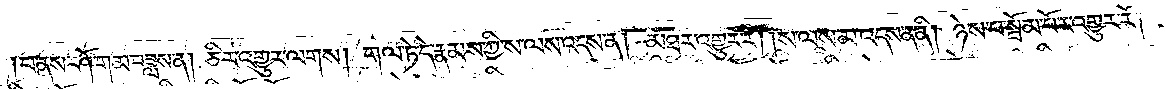།པ་ནས་ཤོ་གམ་བཟླས་ན། ཅིར་འགྱུར་ལགས། གལ་ཏེ་དེ་རྣམས་ཀྱི་ས་ལས་འདས་ན། མཐར་འགྱུར་རོ། །ས་ལས་མ་འདས་ན་ནི། ཉེས་པ་སྦོམ་པོར་འགྱུར་རོ། །
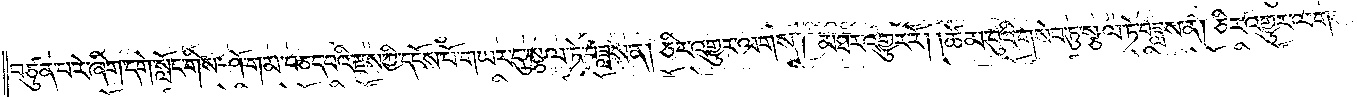བཙུན་པ་རེ་ཞིག་དགེ་སློང་གིས་ཤོ་གམ་བཅད་པའི་རྫས་ཀྱི་དངོས་པོ་གཡར་དུ་སྩལ་ཏེ་བཟླས་ན། ཅིར་འགྱུར་ལགས། མཐར་འགྱུར་རོ། །ཚེམ་བུའི་གསེབ་ཏུ་སྩལ་ཏེ་བཟླས་ན། ཅིར་འགྱུར་ལགས།
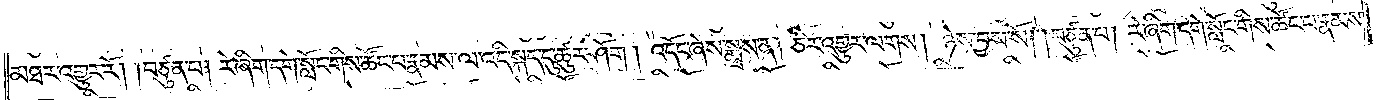མཐར་འགྱུར་རོ། །བཙུན་པ། རེ་ཞིག་དགེ་སློང་གིས་ཚོང་པ་རྣམས་ལ་འདི་སྐད་དུ་ཚུར་ཤོག །འདོང་ཞེས་སྨྲས་ན། ཅིར་འགྱུར་ལགས། ཉེས་བྱས་སོ། །བཙུན་པ། རེ་ཞིག་དགེ་སློང་གིས་ཚོང་པ་རྣམས་
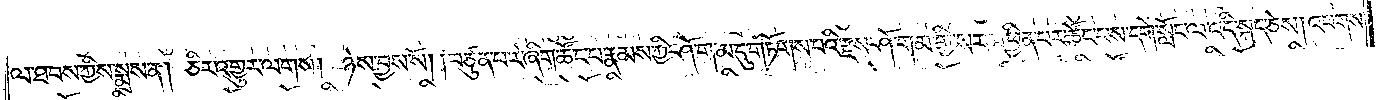ལ་ཐབས་ཀྱིས་སྨྲས་ན། ཅིར་འགྱུར་ལགས། ཉེས་བྱས་སོ། །བཙུན་པ་རེ་ཞིག་ཚོང་པ་རྣམས་ཀྱི་ཤོ་གམ་དུ་གཏོགས་པའི་རྫས་ཤོ་གམ་གྱི་སར་མ་ཕྱིན་པར་ཚོང་པས་དགེ་སློང་ལ་འདི་སྐད་ཅེས། འཕགས་
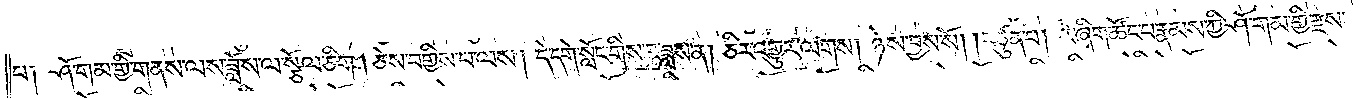པ༑ ཤོ་གམ་གྱི་གནས་ལས་ཟློས་ལ་སྩོལ་ཅིག །ཅེས་བགྱིས་པ་ལས། དེ་དགེ་སློང་གིས་བཟླས་ན། ཅིར་འགྱུར་ལགས། ཉེས་བྱས་སོ། །བཙུན་པ། རེ་ཞིག་ཚོང་པ་རྣམས་ཀྱི་ཤོ་གམ་གྱི་རྫས་
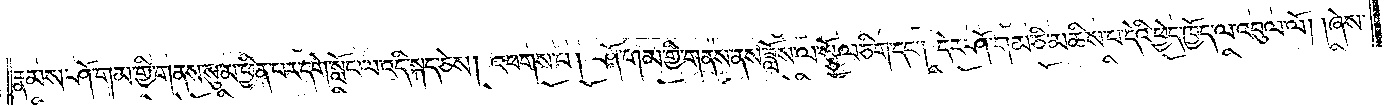རྣམས་ཤོ་གམ་གྱི་གནས་སུ་མ་ཕྱིན་པར་དགེ་སློང་ལ་འདི་སྐད་ཅེས། འཕགས་པ། ཤོ་གམ་གྱི་གནས་ནས་ཟློས་ལ་སྩོལ་ཅིག་དང༌། དེར་ཤོ་གམ་ཅི་མཆིས་པ་དེའི་ཕྱེད་ཁྱོད་ལ་འབུལ་ལོ། །ཞེས་
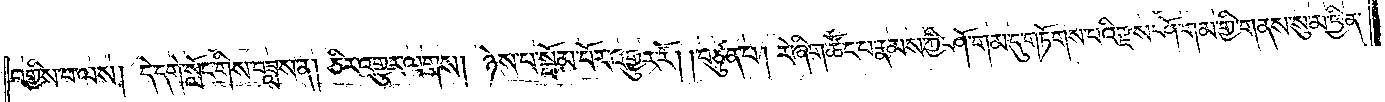བགྱིས་པ་ལས། དེ་དགེ་སློང་གིས་བཟླས་ན། ཅིར་འགྱུར་ལགས། ཉེས་པ་སྦོམ་པོར་འགྱུར་རོ། །བཙུན་པ། རེ་ཞིག་ཚོང་པ་རྣམས་ཀྱི་ཤོ་གམ་དུ་གཏོགས་པའི་རྫས་ཤོ་གམ་གྱི་གནས་སུ་མ་ཕྱིན་
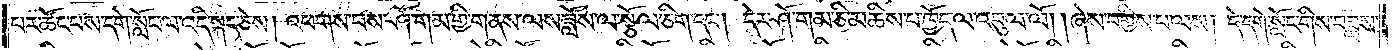པར་ཚོང་པས་དགེ་སློང་ལ་འདི་སྐད་ཅེས། འཕགས་པས་ཤོ་གམ་གྱི་གནས་ལས་ཟློས་ལ་སྩོལ་ཅིག་དང༌། དེར་ཤོ་གམ་ཅི་མཆིས་པ་ཁྱོད་ལ་འབུལ་ལོ། །ཞེས་བགྱིས་པ་ལས། དེ་དགེ་སློང་གིས་བཟླས་
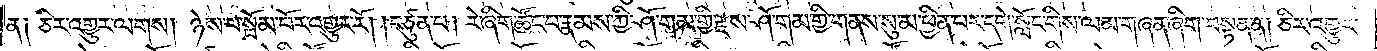ན༑ ཅིར་འགྱུར་ལགས། ཉེས་པ་སྦོམ་པོར་འགྱུར་རོ། །བཙུན་པ། རེ་ཞིག་ཚོང་པ་རྣམས་ཀྱི་ཤོ་གམ་གྱི་རྫས་ཤོ་གམ་གྱི་གནས་སུ་མ་ཕྱིན་པར་དགེ་སློང་གིས་ལམ་གཞན་ཞིག་བསྟན་ན། ཅིར་འགྱུར་
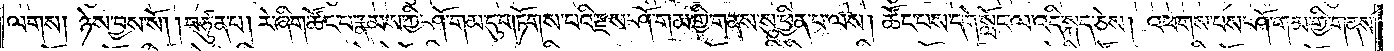ལགས། ཉེས་བྱས་སོ། །བཙུན་པ། རེ་ཞིག་ཚོང་པ་རྣམས་ཀྱི་ཤོ་གམ་དུ་གཏོགས་པའི་རྫས་ཤོ་གམ་གྱི་གནས་སུ་ཕྱིན་པ་ལས། ཚོང་པས་དགེ་སློང་ལ་འདི་སྐད་ཅེས། འཕགས་པས་ཤོ་གམ་གྱི་གནས་
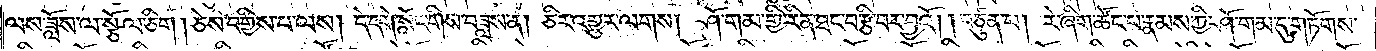ལས་ཟློས་ལ་སྩོལ་ཅིག །ཅེས་བགྱིས་པ་ལས། དེ་དགེ་སློང་གིས་བཟླས་ན། ཅིར་འགྱུར་ལགས། ཤོ་གམ་གྱི་རིན་ཐང་བརྩི་བར་བྱའོ། །བཙུན་པ། རེ་ཞིག་ཚོང་པ་རྣམས་ཀྱི་ཤོ་གམ་དུ་གཏོགས་
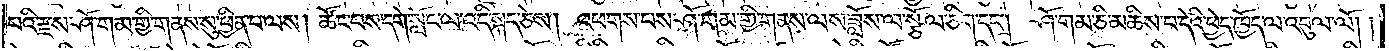པའི་རྫས་ཤོ་གམ་གྱི་གནས་སུ་ཕྱིན་པ་ལས། ཚོང་པས་དགེ་སློང་ལ་འདི་སྐད་ཅེས། འཕགས་པས་ཤོ་གམ་གྱི་གནས་ལས་ཟློས་ལ་སྩོལ་ཅིག་དང༌། ཤོ་གམ་ཅི་མཆིས་པ་དེའི་ཕྱེད་ཁྱོད་ལ་འབུལ་ལོ། །
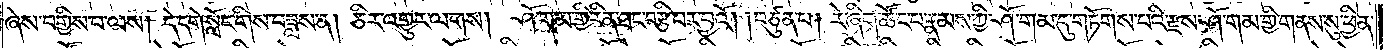ཞེས་བགྱིས་པ་ལས། དེ་དགེ་སློང་གིས་བཟླས་ན། ཅིར་འགྱུར་ལགས། ཤོ་གམ་གྱི་རིན་ཐང་བརྩི་བར་བྱའོ། །བཙུན་པ། རེ་ཞིག་ཚོང་པ་རྣམས་ཀྱི་ཤོ་གམ་དུ་གཏོགས་པའི་རྫས་ཤོ་གམ་གྱི་གནས་སུ་ཕྱིན་
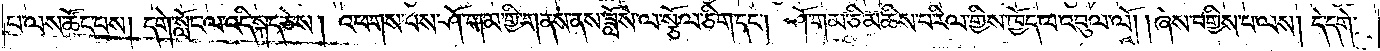པ་ལས་ཚོང་པས། དགེ་སློང་ལ་འདི་སྐད་ཅེས། འཕགས་པས་ཤོ་གམ་གྱི་གནས་ནས་ཟློས་ལ་སྩོལ་ཅིག་དང༌། ཤོ་གམ་ཅི་མཆིས་པ་རིལ་གྱིས་ཁྱོད་ལ་འབུལ་ལོ། །ཞེས་བགྱིས་པ་ལས། དེ་དགེ་
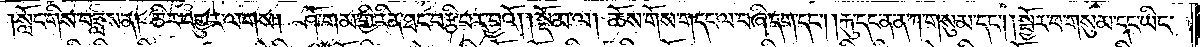།སློང་གིས་བཟླས་ན། ཅིར་འགྱུར་ལགས། ཤོ་གམ་གྱི་རིན་ཐང་བརྩི་བར་བྱའོ། །སྡོམ་ལ། ཆོས་གོས་གདང་ལ་བཞི་དག་དང༌། རྐུ་དང་ན་ན་ཀ་གསུམ་དང༌། །སྦྱོར་བ་གསུམ་དང་ཡིད་
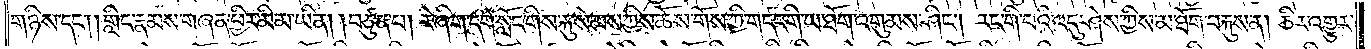གཉིས་དང༌། །གླིང་རྣམས་གཞན་ཕྱིར་མི་མ་ཡིན། །བཙུན་པ། རེ་ཞིག་དགེ་སློང་གིས་རྐུ་སེམས་ཀྱིས་ཆོས་གོས་ཀྱི་གདང་གི་ཡ་ཐོག་འགུམས་ཤིང༌། རང་གི་བའི་འདུ་ཤེས་ཀྱིས་མ་ཐོག་བརྐུས་ན། ཅིར་འགྱུར་
